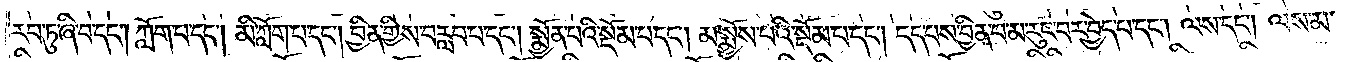རབ་ཏུ་ཞི་བ་དང༌། ཀློག་པ་དང༌། མི་ཀློག་པ་དང༌། བྱིན་གྱིས་བརླབ་པ་དང༌། སྨྱོན་པའི་སྡོམ་པ་དང༌། མ་སྨྱོས་པའི་སྡོམ་པ་དང༌། དད་པས་བྱིན་པ་མ་རུང་བར་བྱེད་པ་དང༌། ལས་དང༌། ལས་མ་
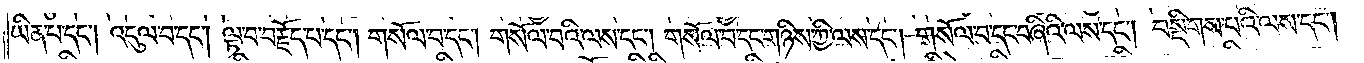ཡིན་པ་དང༌། འདུལ་བ་དང༌། ལྟ་བ་བརྗོད་པ་དང༌། གསོལ་བ་དང༌། གསོལ་བའི་ལས་དང༌། གསོལ་བ་དང་གཉིས་ཀྱི་ལས་དང༌། གསོལ་བ་དང་བཞིའི་ལས་དང༌། བསྡིགས་པའི་ལས་དང༌།
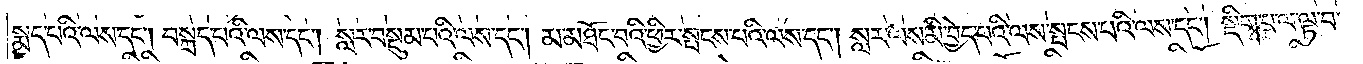སྨད་པའི་ལས་དང༌། བསྐྲད་པའི་ལས་དང༌། སླར་བསྡུམ་པའི་ལས་དང༌། མ་མཐོང་བའི་ཕྱིར་སྤངས་པའི་ལས་དང༌། སླར་ལས་མི་བྱེད་པའི་ལས་སྤངས་པའི་ལས་དང༌། སྡིག་པ་ལ་ལྟ་བ་
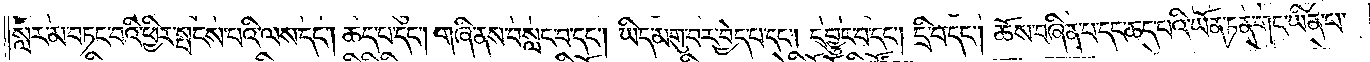སླར་མ་བཏང་བའི་ཕྱིར་སྤངས་པའི་ལས་དང༌། ཆད་པ་དང༌། གཞི་ནས་བསླང་བ་དང༌། ཡིད་མགུ་བར་བྱེད་པ་དང༌། དབྱུང་བ་དང༌། དྲི་བ་དང༌། ཆོས་བཞིན་པ་དང་ཆད་པའི་ཡོན་ཏན་གང་ཡིན་པ་
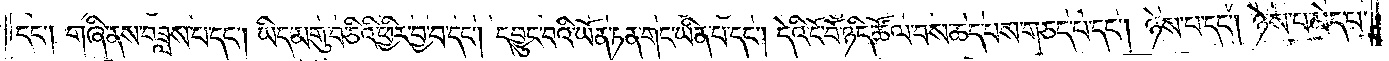དང༌། གཞི་ནས་བཟླས་པ་དང༌། ཡིད་མགུ་བ་ཅིའི་ཕྱིར་བྱ་བ་དང༌། དབྱུང་བའི་ཡོན་ཏན་གང་ཡིན་པ་དང༌། དེའི་ངོ་བོ་ཉིད་ཚོལ་བས་ཆད་པས་གཅད་པ་དང༌། ཉེས་པ་དང༌། ཉེས་པ་མེད་པ་
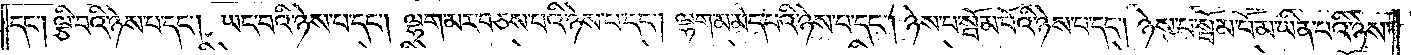དང༌། ལྕི་བའི་ཉེས་པ་དང༌། ཡང་བའི་ཉེས་པ་དང༌། ལྷག་མར་བཅས་པའི་ཉེས་པ་དང༌། ལྷག་མ་མེད་པའི་ཉེས་པ་དང༌། ཉེས་པ་སྦོམ་པོའི་ཉེས་པ་དང༌། ཉེས་པ་སྦོམ་པོ་མ་ཡིན་པའི་ཉེས་
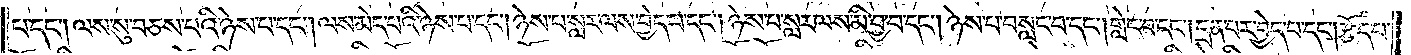པ་དང༌། ལས་སུ་བཅས་པའི་ཉེས་པ་དང༌། ལས་མེད་པའི་ཉེས་པ་དང༌། ཉེས་པ་སླར་ལས་བྱེད་པ་དང༌། ཉེས་པ་སླར་ལས་མི་བྱ་བ་དང༌། ཉེས་པ་བསླང་བ་དང༌། གླེང་བ་དང༌། དྲན་པར་བྱེད་པ་དང༌། རྩོད་པ་
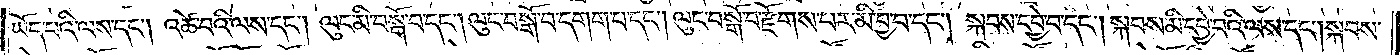ཡོད་པའི་ལས་དང༌། འཚེ་བའི་ལས་དང༌། ལུང་མི་བསྒོ་བ་དང༌། ལུང་བསྒོ་བ་དགག་པ་དང༌། ལུང་བསྒོ་བ་རྫོགས་པར་མི་བྱ་བ་དང༌། སྐབས་དབྱེ་བ་དང༌། སྐབས་མི་དབྱེ་བའི་ལས་དང༌། སྐབས་
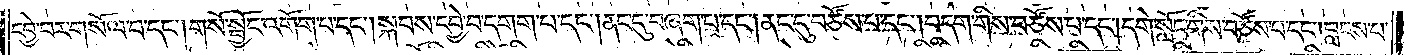དབྱེ་བར་གསོལ་བ་དང༌། གསོ་སྦྱོང་འགོག་པ་དང༌། སྐབས་དབྱེ་བ་དགག་པ་དང༌། ནང་དུ་བཞག་པ་དང༌། ནང་དུ་བཙོས་པ་དང༌། བདག་གིས་བཙོས་པ་དང༌། དགེ་སློང་གིས་བཙོས་པ་དང༌། བླངས་པ་
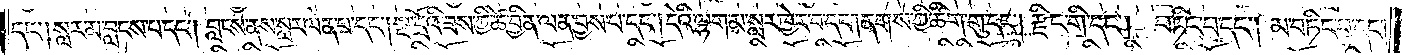དང༌། སླར་མ་བླངས་པ་དང༌། བླངས་ནས་སླར་ལེན་པ་དང༌། སྔ་དྲོའི་ཟས་ཀྱི་ཚེ་བྱིན་ལན་བྱས་པ་དང༌། དེའི་ལྷག་མ་སླར་ཁྱེར་བ་དང༌། ནགས་ཀྱི་ཚིག་གུ་དང༌། རྫིང་གི་དང༌། བཏིང་བ་དང༌། མ་བཏིང་བ་དང༌།
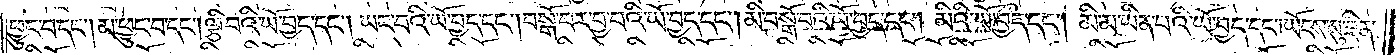ཕྱུང་བ་དང༌། མ་ཕྱུང་བ་དང༌། ལྕི་བའི་ཡོ་བྱད་དང༌། ཡང་བའི་ཡོ་བྱད་དང༌། བསྒོ་བར་བྱ་བའི་ཡོ་བྱད་དང༌། མི་བསྒོ་བའི་ཡོ་བྱད་དང༌། མིའི་ཡོ་བྱད་དང༌། མི་མ་ཡིན་པའི་ཡོ་བྱད་དང༌། ཡོངས་སུ་ཟིན་
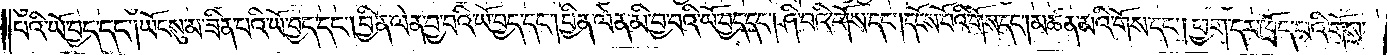པའི་ཡོ་བྱད་དང༌། ཡོངས་སུ་མ་ཟིན་པའི་ཡོ་བྱད་དང༌། བྱིན་ལེན་བྱ་བའི་ཡོ་བྱད་དང༌། བྱིན་ལེན་མི་བྱ་བའི་ཡོ་བྱད་དང༌། ཤི་བའི་གོས་དང༌། དངོས་པོའི་གོས་དང༌། མཚན་མའི་གོས་དང༌། ཕྱག་དར་ཁྲོད་པའི་གོས་
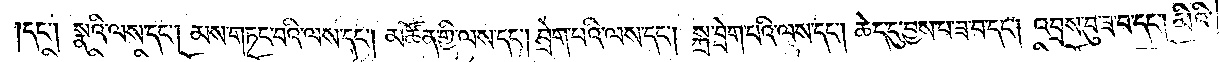དང༌། སྣའི་ལས་དང༌། མས་གཏང་བའི་ལས་དང༌། མཚོན་གྱི་ལས་དང༌། བྲེག་པའི་ལས་དང༌། སྐྲ་བྲེག་བའི་ལས་དང༌། ཆེད་དུ་བྱས་པ་ཟ་བ་དང༌། འབྲས་བུ་ཟ་བ་དང༌། མིའི་
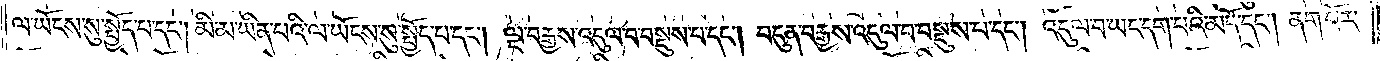ལ་ཡོངས་སུ་སྤྱོད་པ་དང༌། མི་མ་ཡིན་པའི་ལ་ཡོངས་སུ་སྤྱོད་པ་དང༌། ལྔ་བརྒྱས་འདུལ་བ་བསྡུས་པ་དང༌། བདུན་བརྒྱས་འདུལ་བ་བསྡུས་པ་དང༌། འདུལ་བ་ཡང་དག་པའི་མདོ་དང༌། ནག་པོར་
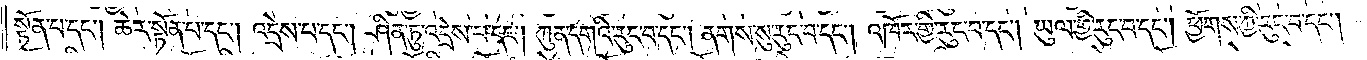སྟོན་པ་དང༌། ཆེར་སྟོན་པ་དང༌། འདྲེས་པ་དང༌། ཤིན་ཏུ་འདྲེས་པ་དང༌། ཀུན་དགའི་རུང་བ་དང༌། ནགས་སུ་རུང་བ་དང༌། འཁོར་གྱི་རུང་བ་དང༌། ཡུལ་གྱི་རུང་བ་དང༌། ཕྱོགས་ཀྱི་རུང་བ་དང༌།
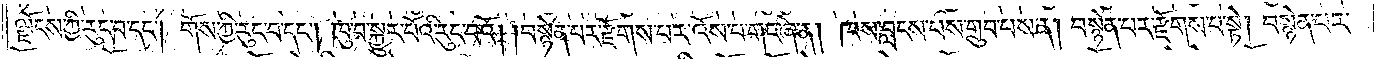ལྗོངས་ཀྱི་རུང་བ་དང༌། གོས་ཀྱི་རུང་བ་དང༌། ཁུ་བ་སྐྱུར་པོའི་རུང་བའོ། །བསྙེན་པར་རྫོགས་པར་འོས་པ་གང་ཞེ་ན། ཁས་བླངས་པས་གྲུབ་པས་ན། བསྙེན་པར་རྫོགས་པ་སྟེ། བསྙེན་པར་
